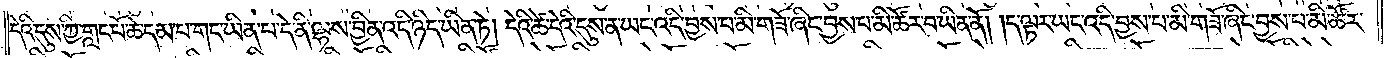དེའི་དུས་ཀྱི་གླང་པོ་ཆེ་དམ་པ་གང་ཡིན་པ་དེ་ནི་ལྷས་བྱིན་འདི་ཉིད་ཡིན་ཏེ། དེའི་ཚེ་དེའི་དུས་ན་ཡང་འདི་བྱས་པ་མི་གཟོ་ཞིང་བྱས་པ་མི་ཚོར་བ་ཡིན་ནོ། །ད་ལྟར་ཡང་འདི་བྱས་པ་མི་གཟོ་ཞིང་བྱས་པ་མི་ཚོར་
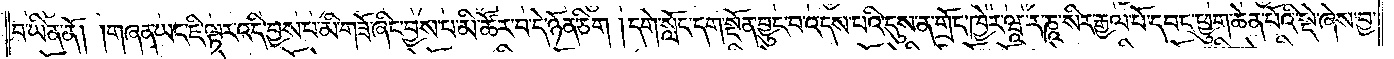བ་ཡིན་ནོ། །གཞན་ཡང་ཇི་ལྟར་འདི་བྱས་པ་མི་གཟོ་ཞིང་བྱས་པ་མི་ཚོར་བ་དེ་ཉོན་ཅིག །དགེ་སློང་དག་སྔོན་བྱུང་བ་འདས་པའི་དུས་ན་གྲོང་ཁྱེར་ཝཱ་ར་ཎཱ་སིར་རྒྱལ་པོ་དབང་ཕྱུག་ཆེན་པོའི་སྡེ་ཞེས་བྱ་
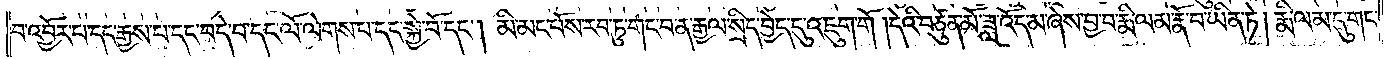བ་འབྱོར་པ་དང་རྒྱས་པ་དང་བདེ་བ་དང་ལོ་ལེགས་པ་དང་སྐྱེ་བོ་དང༌། མི་མང་པོས་རབ་ཏུ་གང་བ་ན་རྒྱལ་སྲིད་བྱེད་དུ་འཇུག་གོ། །དེའི་བཙུན་མོ་ཟླ་འོད་མ་ཞེས་བྱ་བ་རྨི་ལམ་རྣོ་བ་ཡིན་ཏེ། རྨི་ལམ་དུ་གང་
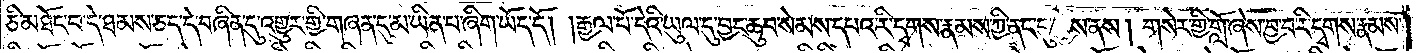ཅི་མཐོང་བ་དེ་ཐམས་ཅད་དེ་བཞིན་དུ་འགྱུར་གྱི་གཞན་དུ་མ་ཡིན་པ་ཞིག་ཡོད་དོ། །རྒྱལ་པོ་དེའི་ཡུལ་དུ་བྱང་ཆུབ་སེམས་དཔའ་རི་དྭགས་རྣམས་ཀྱི་ནང་དུ་སྐྱེས་ནས། གསེར་གྱི་གློ་ཞེས་བྱ་བ་རི་དྭགས་རྣམས་
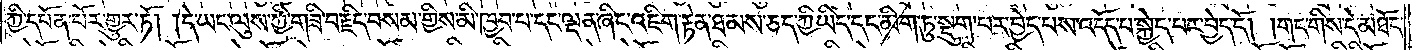ཀྱི་དཔོན་པོར་གྱུར་ཏོ། །དེ་ཡང་ལུས་ཀྱི་གཟི་བརྗིད་བསམ་གྱིས་མི་ཁྱབ་པ་དང་ལྡན་ཞིང་འཇིག་རྟེན་ཐམས་ཅད་ཀྱི་ཡིད་དང་མིག་ཏུ་སྡུག་པར་བྱེད་པས་འདོད་པ་སྐྱེད་པར་བྱེད་དོ། །གང་གིས་དེ་མཐོང་
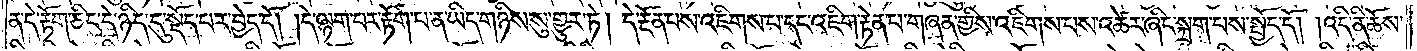ན་དེ་རྟོག་ཅིང་དེ་ཉིད་དུ་སྡོད་པར་བྱེད་དོ། །དེ་ལྷག་པར་རྟོག་པ་ན་ཡིད་གཉིས་སུ་གྱུར་ཏེ། དེ་རྔོན་པས་འཇིགས་པ་དང་འཇིག་རྟེན་པ་གཞན་གྱིས་འཇིགས་པས་འཚེར་ཞིང་སྐྲག་པས་སྤྱོད་དོ། །འདི་ནི་ཆོས་
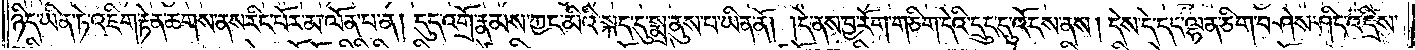ཉིད་ཡིན་ཏེ་འཇིག་རྟེན་ཆགས་ནས་རིང་པོར་མ་ལོན་པ་ན། དུད་འགྲོ་རྣམས་ཀྱང་མིའི་སྐད་དུ་སྨྲ་ནུས་པ་ཡིན་ནོ། །དེ་ནས་བྱ་རོག་གཅིག་དེའི་དྲུང་དུ་འོངས་ནས། དེས་དེ་དང་ལྷན་ཅིག་བཤེས་ཤིང་འདྲིས་
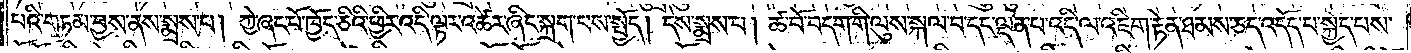པའི་གཏམ་བྱས་ནས་སྨྲས་པ། ཀྱེ་ཞང་པོ་ཁྱོད་ཅིའི་ཕྱིར་འདི་ལྟར་འཚེར་ཞིང་སྐྲག་པས་སྤྱོད། དེས་སྨྲས་པ། ཚ་བོ་བདག་གི་ལུས་སྐལ་བ་དང་ལྡན་པ་འདི་ལ་འཇིག་རྟེན་ཐམས་ཅད་འདོད་པ་སྐྱེད་པས་
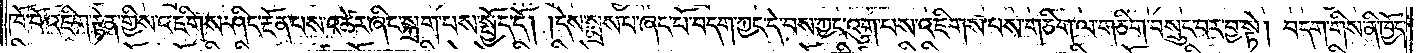ཁོ་བོ་འཇིག་རྟེན་གྱིས་འཇིགས་ཤིང་རྔོན་པས་འཚེར་ཞིང་སྐྲག་པས་སྤྱོད་དོ། །དེས་སྨྲས་པ་ཞང་པོ་བདག་ཀྱང་དེ་བས་ཀྱང་འུག་པས་འཇིགས་པས་གཅིག་ལ་གཅིག་བསྲུང་བར་བྱ་སྟེ། བདག་གིས་ནི་ཁྱོད་
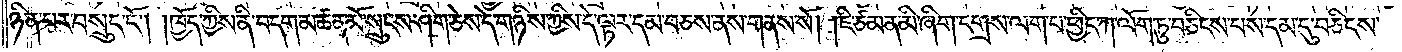ཉིན་པར་བསྲུང་ངོ༌། །ཁྱོད་ཀྱིས་ནི་བདག་མཚན་མོ་སྲུངས་ཤིག་ཅེས་དེ་གཉིས་ཀྱིས་དེ་ལྟར་དམ་བཅས་ནས་གནས་སོ། །ཇི་ཙམ་ན་མི་ཞིག་དགྲས་ལག་པ་ཕྱིང་ཀ་ལོག་ཏུ་བཅིངས་པས་དམ་དུ་བཅིངས་
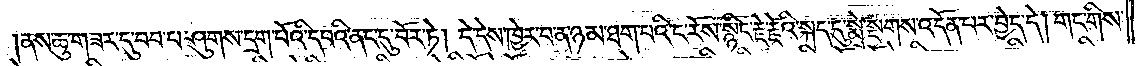།ནས་ཆུ་གཟར་དུ་བབ་པ་ཤུགས་དྲག་པོའི་དབའི་ནང་དུ་བོར་ཏེ། དེ་དེས་ཁྱེར་བ་ན་ཉམ་ཐག་པའི་ང་རོས་སྙིང་རྗེ་རྗེའི་སྐད་དུ་སྨྲེ་སྔགས་འདོན་པར་བྱེད་དེ། གང་གིས་
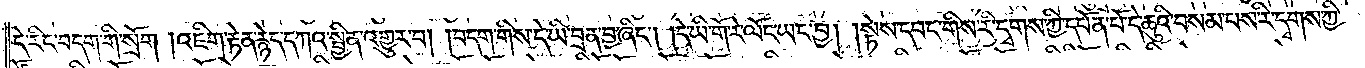དེ་རིང་བདག་གི་སྲོག །འཇིག་རྟེན་རྙེད་དཀའ་སྦྱིན་འགྱུར་བ། །བདག་གིས་དེ་ཡི་བྲན་བྱ་ཞིང༌། །དེ་ཡི་གོ་རེ་ལོང་ཡང་བྱ། །སྟེས་དབང་གིས་རི་དྭགས་ཀྱི་དཔོན་པོ་དེ་ཆུའི་བསམ་པས་རི་དྭགས་ཀྱི་
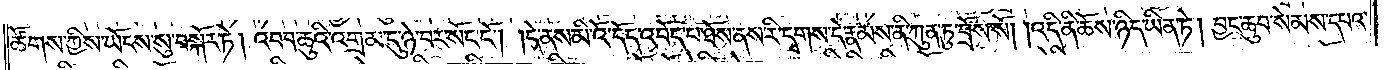ཚོགས་ཀྱིས་ཡོངས་སུ་བསྐོར་ཏེ། འབབ་ཆུའི་འགྲམ་དུ་ཉེ་བར་སོང་ངོ༌། །དེ་ནས་མིའོ་དོད་འབོད་པ་ཐོས་ནས་རི་དྭགས་དེ་རྣམས་ནི་ཀུན་ཏུ་བྲོས་སོ། །འདི་ནི་ཆོས་ཉིད་ཡིན་ཏེ། བྱང་ཆུབ་སེམས་དཔའ་
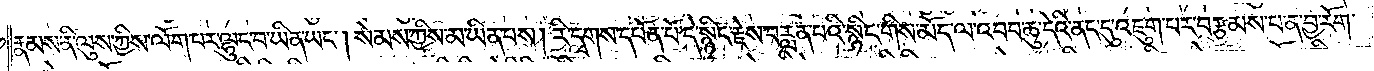རྣམས་ནི་ལུས་ཀྱིས་ལོག་པར་ལྷུང་བ་ཡིན་ཡང༌། སེམས་ཀྱིས་མ་ཡིན་པས། རི་དྭགས་དཔོན་པོ་དེ་སྙིང་རྗེས་བརླན་པའི་སྙིང་གིས་མོད་ལ་འབབ་ཆུ་དེའི་ནང་དུ་འཇུག་པར་བརྩམས་པ་ན་བྱ་རོག་
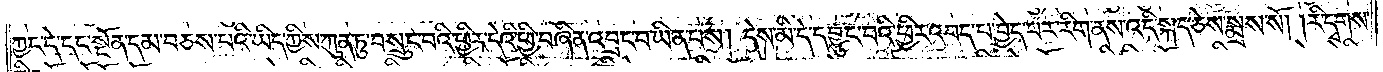ཀྱང་དེ་དང་སྔོན་དམ་བཅས་པའི་ཡིད་ཀྱིས་ཀུན་ཏུ་བསྲུང་བའི་ཕྱིར་དེའི་ཕྱི་བཞིན་འབྲང་བ་ཡིན་པས། དེས་མི་དེ་དབྱུང་བའི་ཕྱིར་འབད་པ་བྱེད་པར་རིག་ནས་འདི་སྐད་ཅེས་སྨྲས་སོ། །རི་དྭགས་
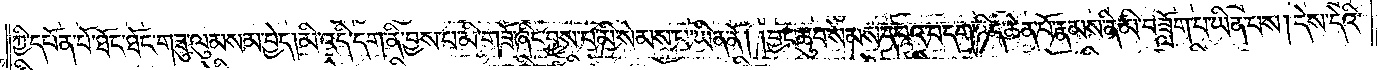ཀྱི་དཔོན་པོ་ཐོང་ཐོང་གཟུ་ལུམས་མ་བྱེད། མི་འདི་དག་ནི་བྱས་པ་མི་གཟོ་ཞིང་བྱས་པ་མི་སེམས་པ་ཡིན་ནོ། །བྱང་ཆུབ་སེམས་དཔའ་བདག་ཉིད་ཆེན་པོ་རྣམས་ནི་མི་བཟློག་པ་ཡིན་པས། དེས་དེའི་
